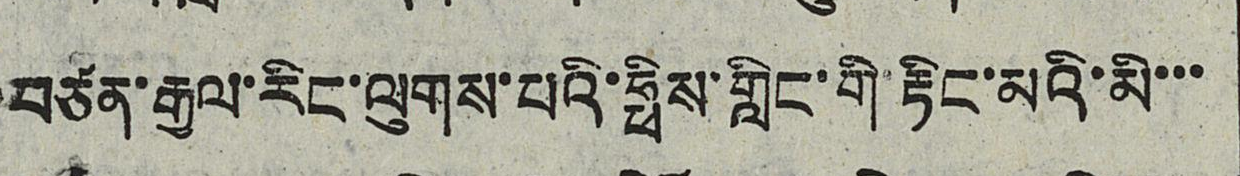བཙན་རྒྱལ་རིང་ལུགས་པའི་ཧྥིས་གླིང་གི་རྟིང་མའི་མི་་་
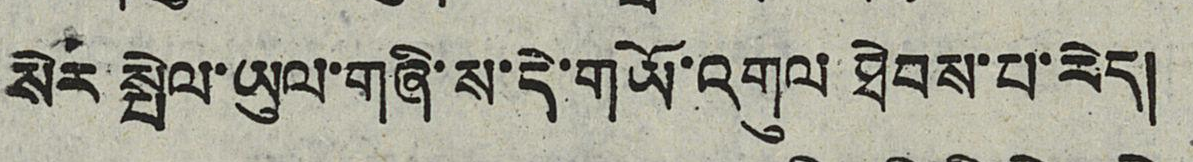སེར་སྤེལ་ཡུལ་གཞི་ས་དེ་གཡོ་འགུལ་ཐེབས་པ་རེད།
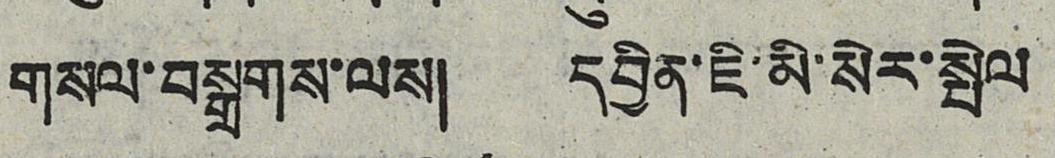གསལ་བསྒྲགས་ལས། དབྱིན་ཇི་མི་སེར་སྤེལ
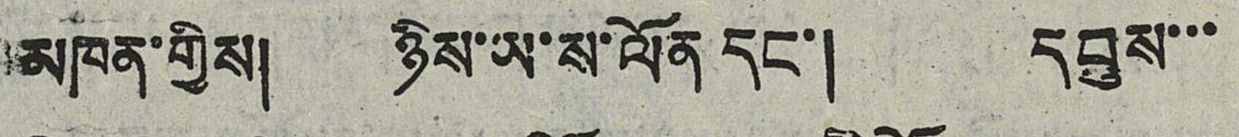མཁན་གྱིས། ཉིས་ཡ་ས་ལོན དང་། དབུས་་་
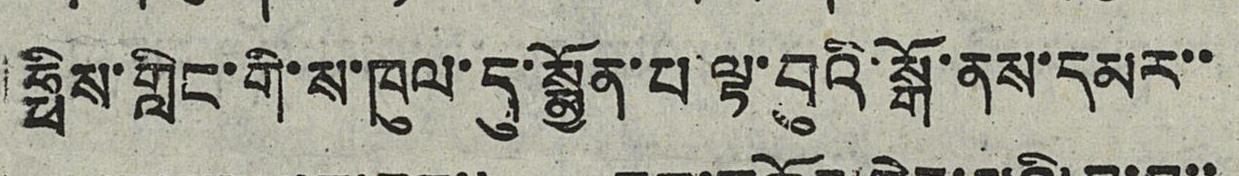ཧྥིས་གླིང་གི་ས་ཁུལ་དུ་སྨྱོན་པ་ལྟ་བུའི་སྒོ་ནས་དམར་་
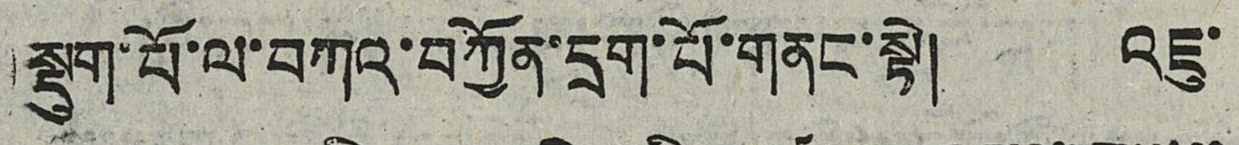སྡུག་པོ་ལ་བཀའ་བཀྱོན་དྲག་པོ་གནང་སྟེ། འཇུ་
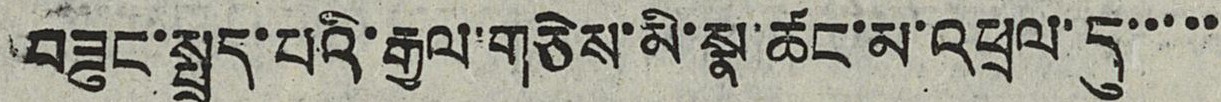བཟུང་སྤྲད་པའི་རྒྱལ་གཅེས་མི་སྣ་ཚང་མ་འཕྲལ་དུ་་་་
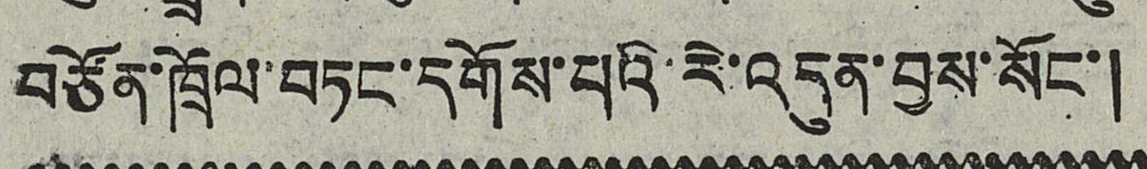བཙོན་ཁྲོལ་བཏང་དགོས་པའི་རེ་འདུན་བྱས་སོང་།
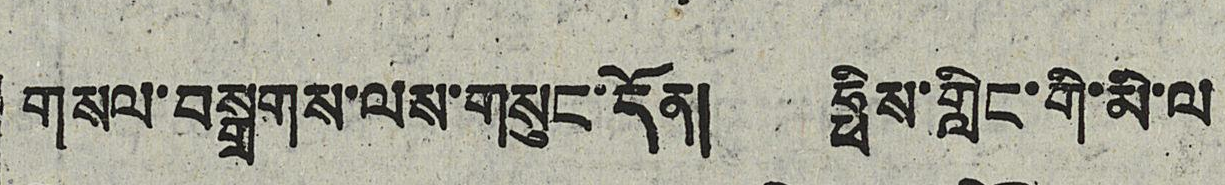གསལ་བསྒྲགས་ལས་གསུང་དོན། ཧྥིས་གླིང་གི་མི་ལ་
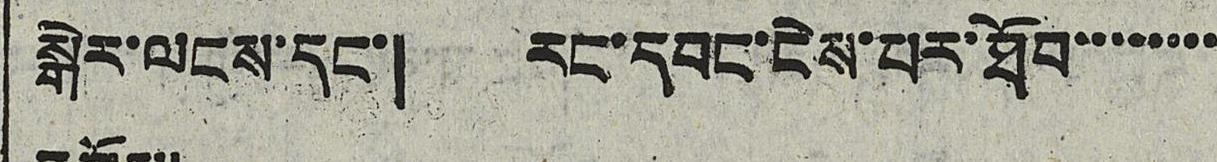སྒེར་ལངས་དང་། རང་དབང་ངེས་པར་ཐོབ་་་་་་་་
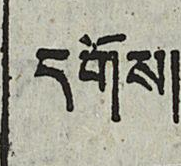དགོས།
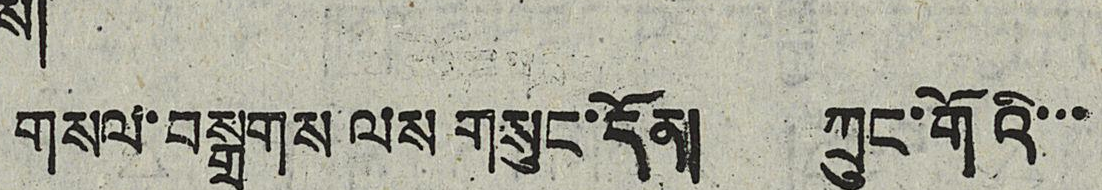གསལ་བསྒྲགས་ལས གསུང་དོན། ཀྲུང་གོའི་་་
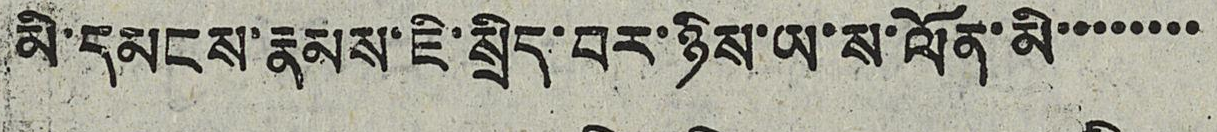མི་དམངས་རྣམས་ཇི་སྲིད་བར་ཉིས་ཡ་ས་ལོན་མི་་་་་་་་
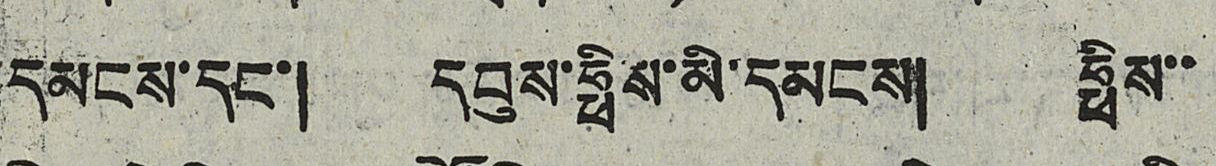དམངས་དང་། དབུས་ཧྥིས་མི་དམངས། ཧྥིས་་
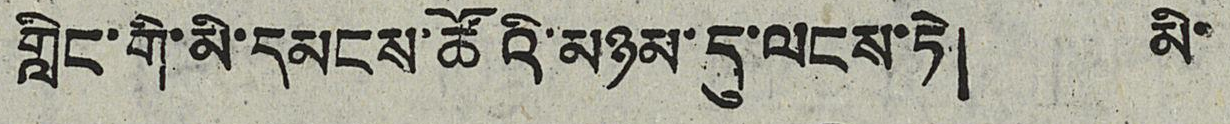གླིང་གི་མི་དམངས་ཚོའི་མཉམ་དུ་ལངས་ཏེ། མི་
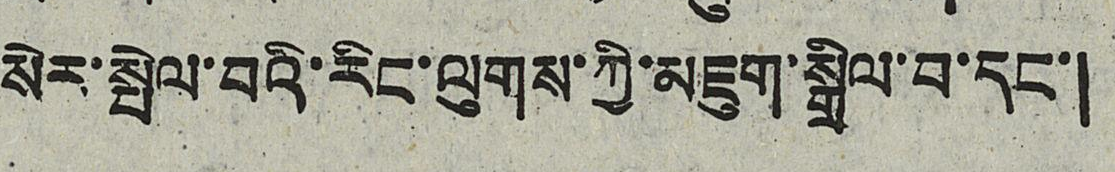སེར་སྤེལ་བའི་རིང་ལུགས་ཀྱི་མཇུག་སྒྲིལ་བ་དང་།
